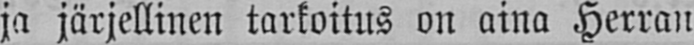ja järjellinen tarkoitus on aina Herran
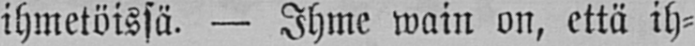ihmetöissä. — Ihme wain on, että ih-
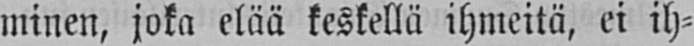minen, joka elää keskellä ihmeitä, ei ih-
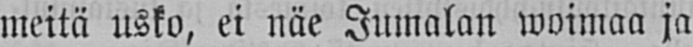meitä usko, ei näe Jumalan woimaa ja
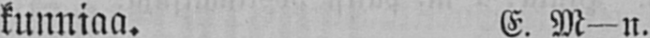kunniaa. E. M—n.
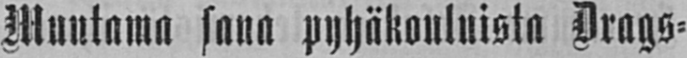Muutama sana pyhäkouluista Drags-
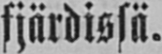fjärdissä.
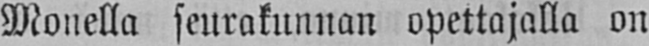Monella seurakunnan opettajalla on
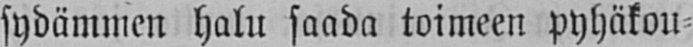sydämmen halu saada toimeen pyhäkou-
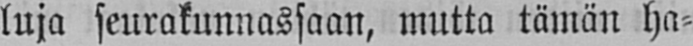luja seurakunnassaan, mutta tämän ha-
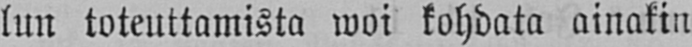lun toteuttamista woi kohdata ainakin
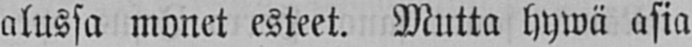alussa monet esteet. Mutta hywä asia
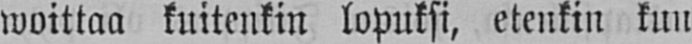woittaa kuitenkin lopuksi, etenkin kun
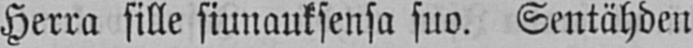Herra sille siunauksensa suo. Sentähden
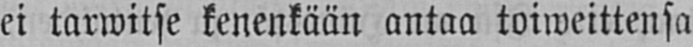ei tarwitse kenenkään antaa toiweittensa
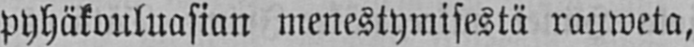pyhäkouluasian menestymisestä rauweta,
